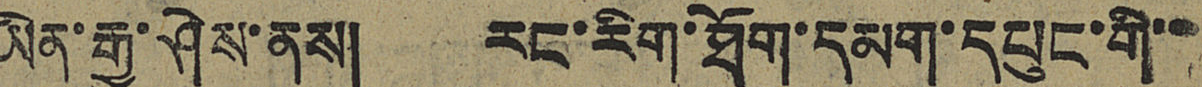ཡིན་རྒྱུ་ཤེས་ནས། རང་རིག་ཐོག་དམག་དཔུང་གི་་
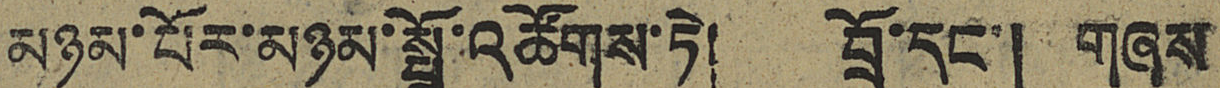མཉམ་པོར་མཉམ་སྤྲོ་འཚོགས་ཏེ། བྲོ་དང་། གཞས
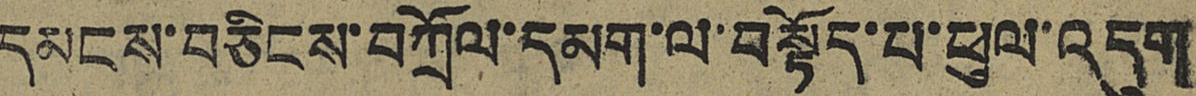དམངས་བཅིངས་བཀྲོལ་དམག་ལ་བསྟོད་པ་ཕུལ་འདུག
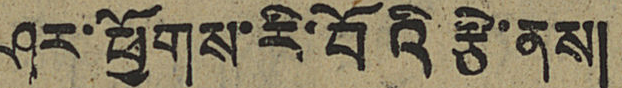ཤར་ཕྱོགས་རི་བོའི རྩེ་ནས།
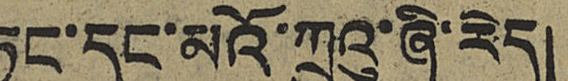ཏན་དང་མའོ་ཀྲུའུ་ཞི་རེད།
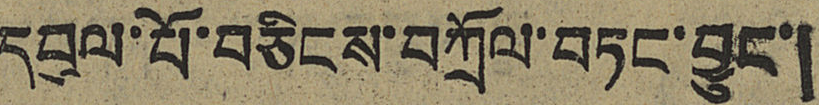དབུལ་པོ་བཅིངས་བཀྲོལ་བཏང་བྱུང་།
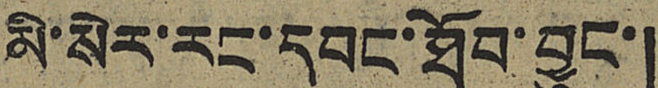མི་སེར་རང་དབང་ཐོབ་བྱུང་།
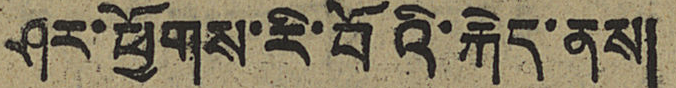ཤར་ཕྱོགས་རི་བོའི་རྐེད་ནས།
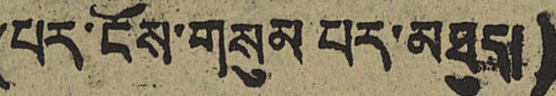(པར་ངོས་གསུམ པར་མཐུད།)
